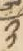༡༡
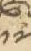༡༧
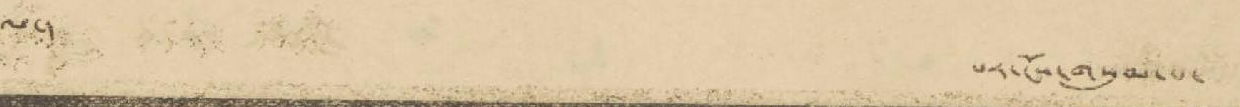ལ་། པར་ངོས་གསུམ་པ་
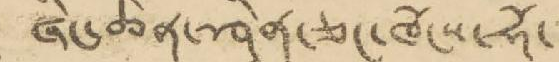ཞིང་ཆེན་ཤཱིན་ཅང་ཁོངས་ཧོ་
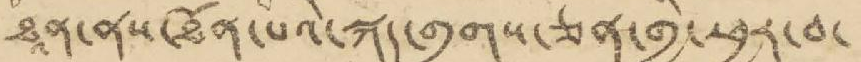ཐཱན་ནས་ཐོན་པའི་སྐད་གྲགས་ཅན་གྱི་ཕྱར་བ་
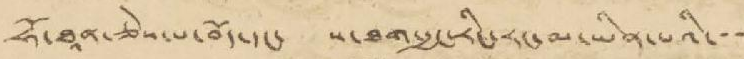ཧོ་ཐཱན་ཅེས་པ་བོད་དང་ ས་ཐག་རྒྱང་རིང་རང་མ་ཡིན་པའི་་་
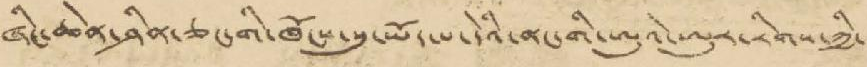ཞིང་ཆེན་ཤིན་ཅང་གི་ཁོངས་སུ་ཡོད་པ་དེའི་ནང་གི་ཨུའེ་ཨུར་རིགས་ཀྱི་
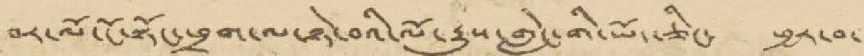བར་ལོ་ངོ་སྟོང་ཕྲག་ལ་ཉེ་བའི་ལོ་རྒྱུས་གླེང་གི་ཡོད་ཅིང་ ཕྱར་བ་
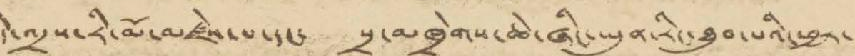དེ་འདྲས་རི་མོ་མཛེས་པ་དང་ སྲ་མཁྲེགས་ཆེ་ཞིང་ཡུན་རིང་ཐུབ་པའི་ཕྱར་
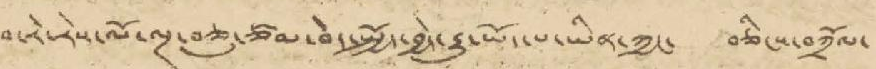བ་རེ་རེས་ལོ་ལྔ་བཅུ་ཙམ་བེད་སྤྱོད་བྱེད་རྒྱུ་ཡོད་པ་ཡིན་ཀྱང་ བཅིངས་བཀྲོལ་
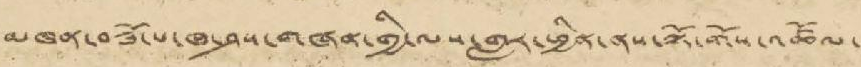མཁན་བཟོ་པ་ཁ་ཤས་གཞན་གྱི་ལས་གླར་ཕྱིན་ནས་ལྟོ་གོས་འཚོལ་
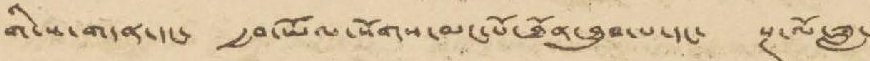གི་ས་གདན་དང་ རྒྱབ་ཡོལ་སོགས་མང་པོ་ཐོན་ཐུབ་པ་དང་ སྔ་ལོ་ཟླ་
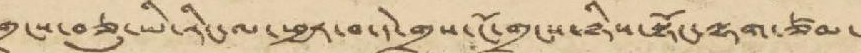གྲངས་བཅུ་ཡི་རིང་ལ་ཕྱར་བ་དེ་གྲས་ངོ་གྲངས་ཉིས་སྟོང་ལྷག་ཙམ་
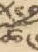ཚོང་
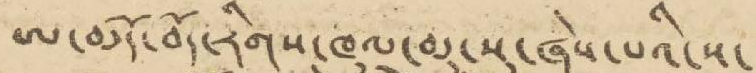ཨ་མདོ་བོད་རིགས་ཁུལ་མུ་སུ་ཞེས་པའི་ས་
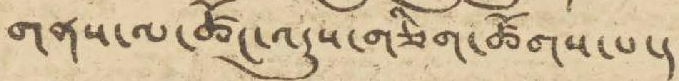གནས་ལ་ཚོང་འདུས་གཅིག་ཚོགས་པ་།
